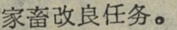家畜改良任务。
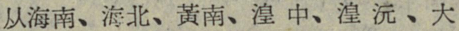从海南、海北、黃南、湟中、湟源、大
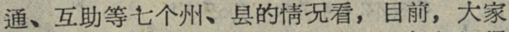通、互助等七个州、县的情況看，目前，大家
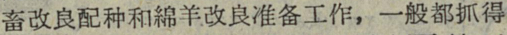畜改良配种和綿羊改良准备工作，一般都抓得
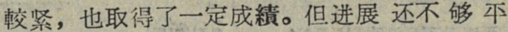較紧，也取得了一定成績。但进展还不够平
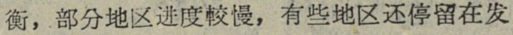衡，部分地区进度較慢，有些地区还停留在发
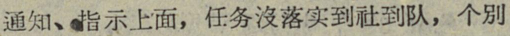通知、指示上面，任务沒落实到社到队，个別
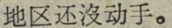地区还沒动手。
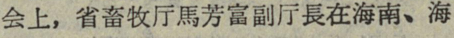会上，省畜牧厅馬芳富副厅長在海南、海
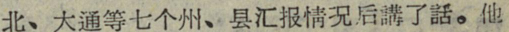北、大通等七个州、县汇报情況后講了話。他
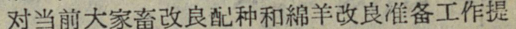对当前大家畜改良配种和綿羊改良准备工作提
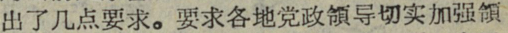出了几点要求。要求各地党政領导切实加强領
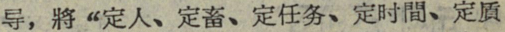导，將“定人、定畜、定任务、定时間、定貭
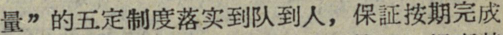量”的五定制度落实到队到人，保証按期完成
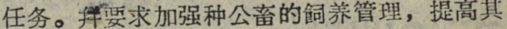任务。并要求加强种公畜的飼养管理，提高其
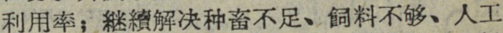利用率；継續解决种畜不足、飼科不够、人工
